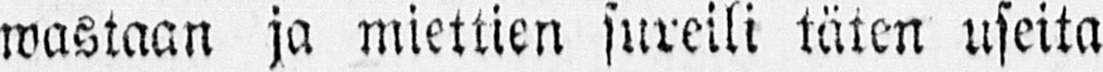wastaan ja miettien sureili täten useita
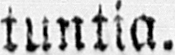tuntia.
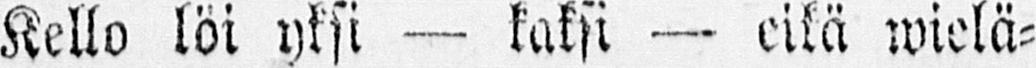Kello loi yksi — kaksi — eikä wielä-
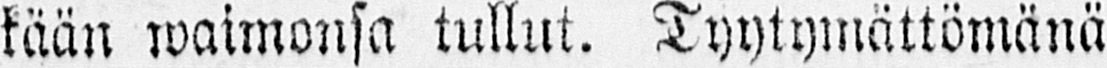kään waimonsa tullut. Tyytymättömänä
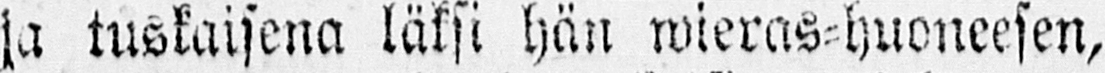ja tuskaisena läksi hän wieras-huoneesen,
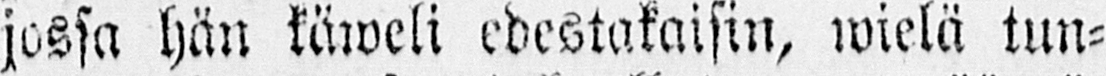jossa hän käweli edestakaisin, wielä tun-
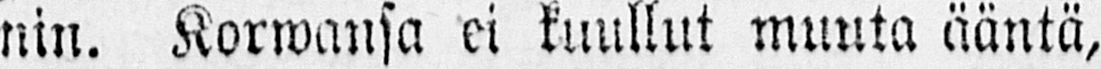nin. Korwansa ei kuullut muuta ääntä,
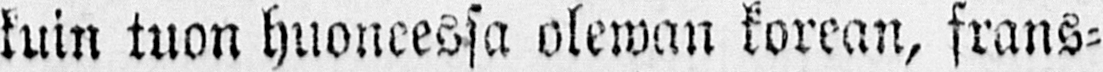kuin tuon huoneessa olewan korean, frans-
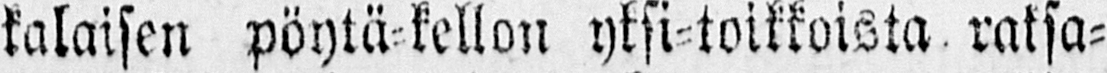kalaisen pöytä kellon yksi-toikkoista raksa-
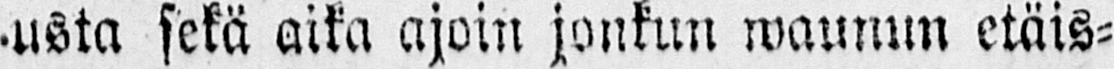usta sekä aika ajoin jonkun waunun etäis-
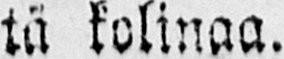tä kolinaa.
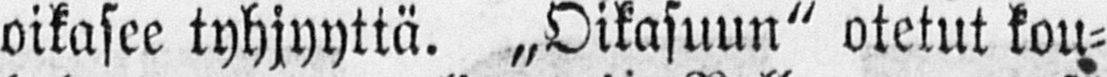oikasee tyhjyyttä. „Oikasuun" otetut kou-
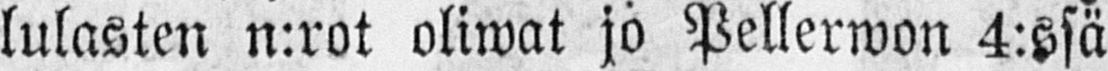lulasten n:rot oliwat jo Pellerwon 4:ssä
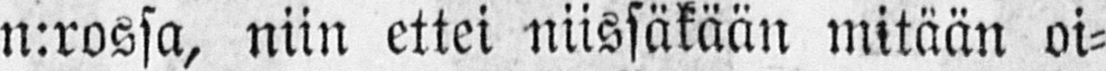n:rossa, niin ettei niissäkään mitään oi-
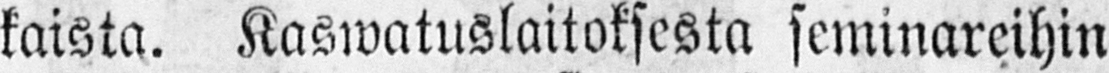kaista. Kaswatuslaitoksesta seminareihin
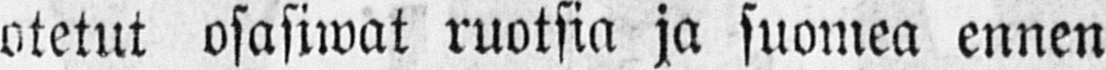otetut osasiwat ruotsia ja suomea ennen
